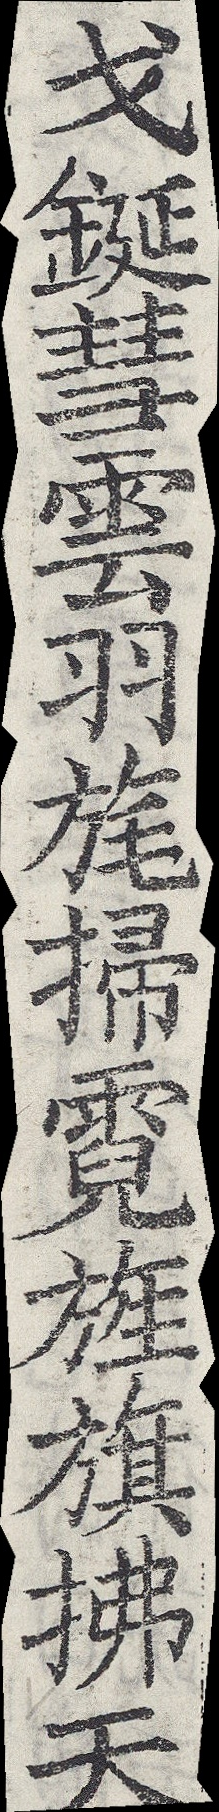戈鋋彗雲羽旄掃霓旌旗拂天
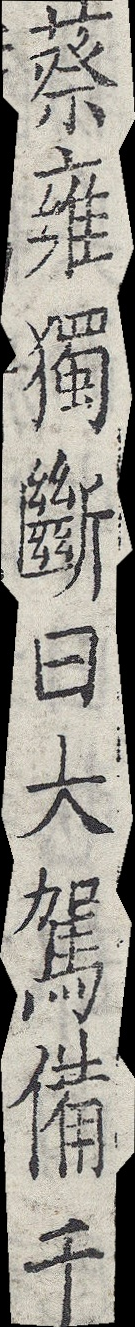蔡雍獨斷曰大駕備千
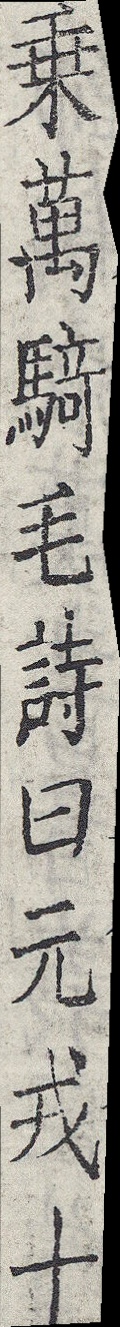乘萬騎毛詩曰元戎十
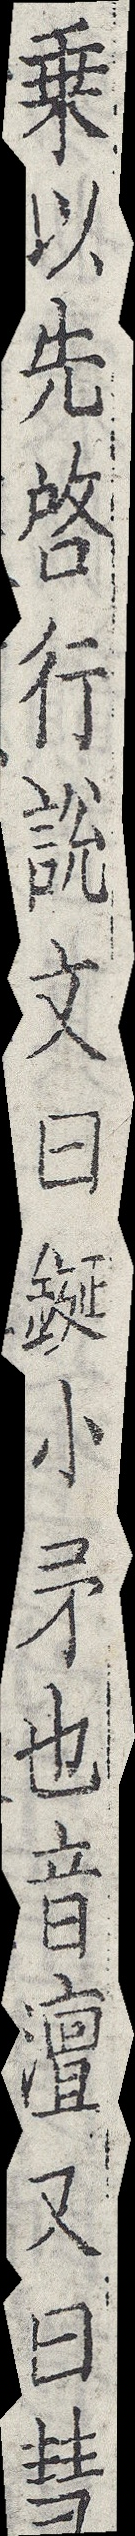乘以先啓行說文曰鋋小矛也音澶又曰彗
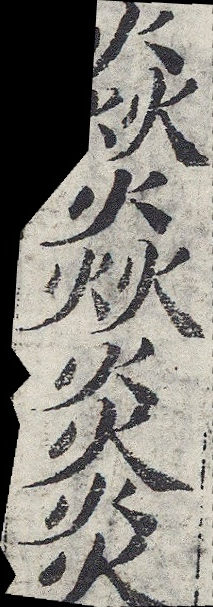焱焱炎炎
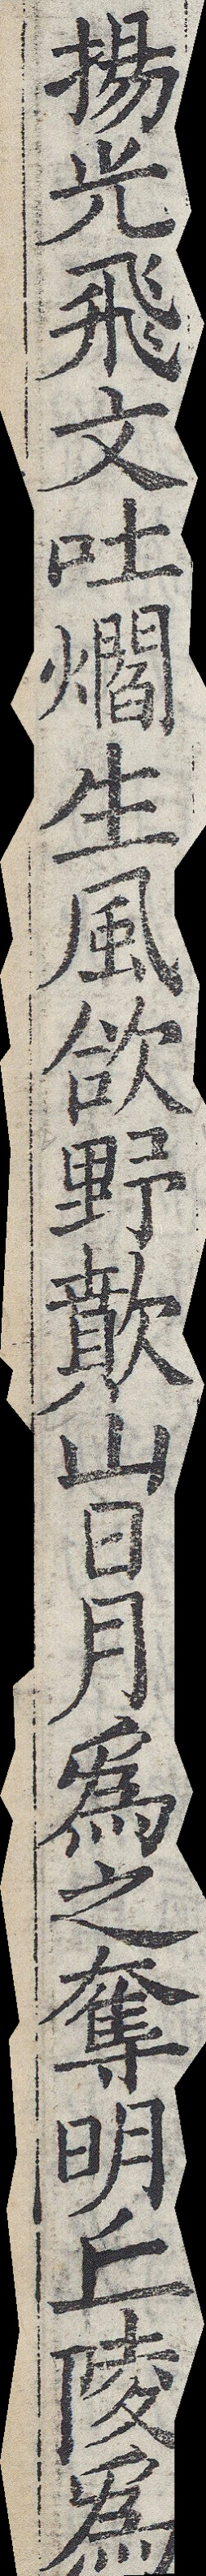揚光飛文吐爓生風欱野歕山日月為之奪明丘陵為
